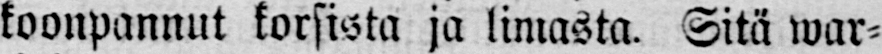koonpannut korsista ja limasta. Sitä war-
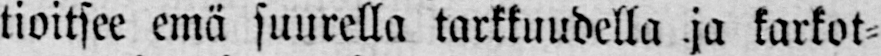tioitsee emä suurella tarkkuudella ja karkot-
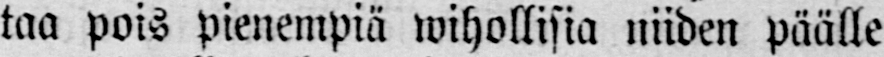taa pois pienempiä wihollisia niiden päälle
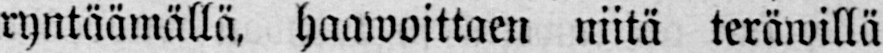ryntäämällä, haawoittaen niitä teräwillä
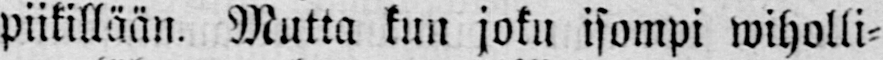piikillään. Mutta kun joku isompi wiholli-
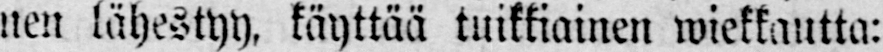nen lähestyy, käyttää tuikkiainen wiekkautta:
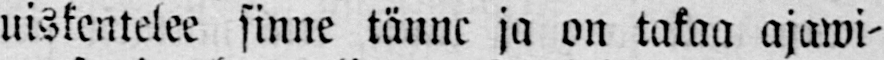uiskentelee sinne tänne ja on takaa ajawi-
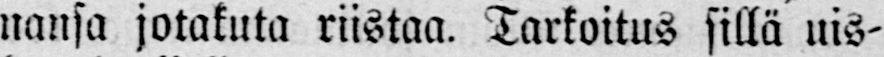nansa jotakuta riistaa. Tarkoitus sillä uis-
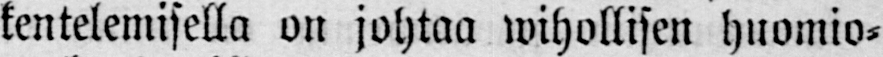kentelemisella on johtaa wihollisen huomio-
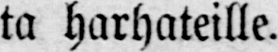ta harhateille.
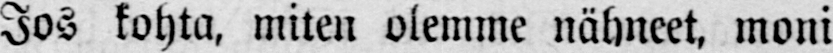Jos kohta, miten olemme nähneet, moni
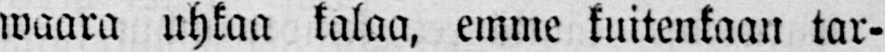waara uhkaa kalaa, emme kuitenkaan tar-
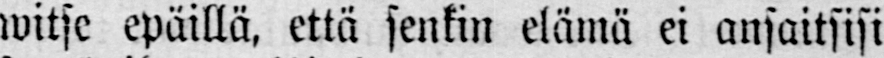witse epäillä, että senkin elämä ei ansaitsisi
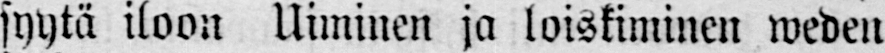syytä iloon Uiminen ja loiskiminen weden
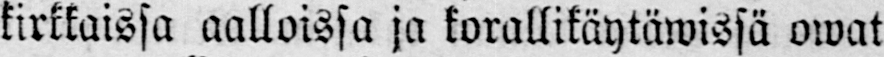kirkkaissa aalloissa ja korallikäytäwissä owat
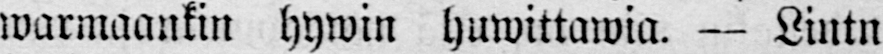warmaankin hywin huwittawia. — Lintn
